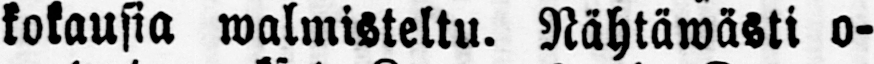kokausia walmisteltu. Nähtäwästi o-
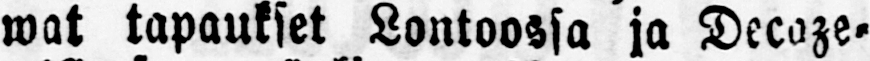wat tapaukset Lontoossa ja Decaze-
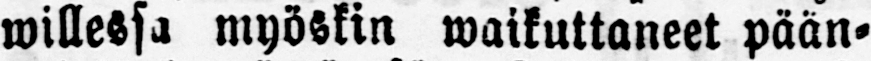willessa myöskin waikuttaneet pään-
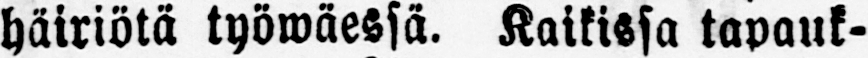häiriötä työwäessä. Kaikissa tapauk-
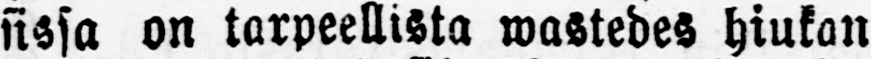sissa on tarpeellista wastedes hiukan
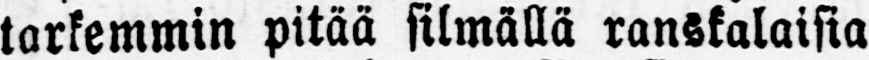tarkemmin pitää silmällä ranskalaisia
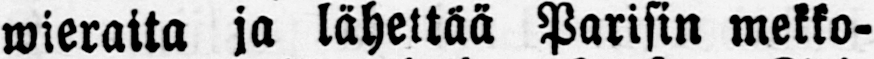wieraita ja lähettää Parisin mekko-
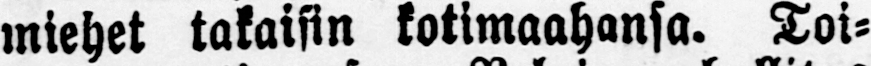miehet takaisin kotimaahansa. Toi-
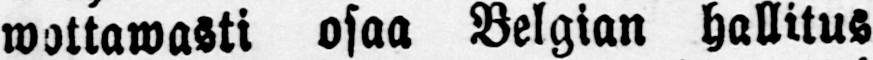wottawasti osaa Belgian hallitus
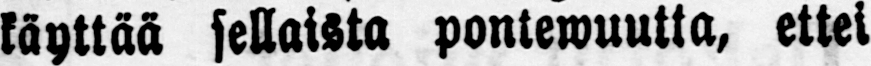käyttää sellaista pontewuutta, ettei
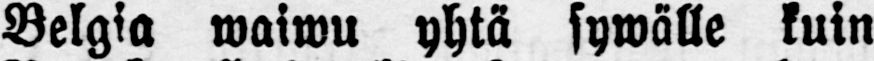Belgia waiwu yhtä sywälle kuin
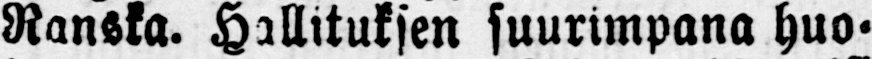Ranska. Hallituksen suurimpana huo-
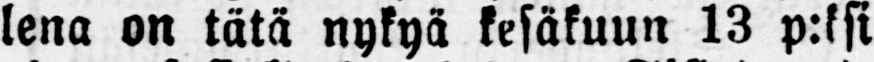lena on tätä nykyä kesäkuun 13 p:ksi
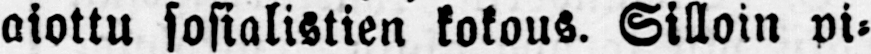aiottu sosialistien kokous. Silloin pi-
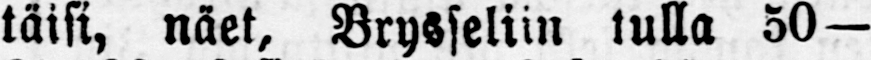täisi, näet, Brysseliin tulla 50—
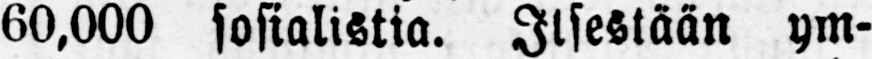60,000 sosialistia. Itsestään ym-
